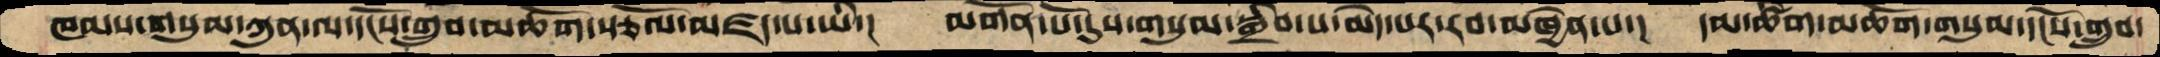ཁམས་གསུམ་ཀུན་ལ་དངོས་གྲུབ་མཆོག་སྩོལ་མཛད་པ་ཡི་།  མགོན་པོ་དུས་གསུམ་སྒྲིབ་པ་མེད་པར་རབ་མཁྱེན་པ་།  དམ་ཚིག་མཆོག་གསུམ་དངོས་གྲུབ་
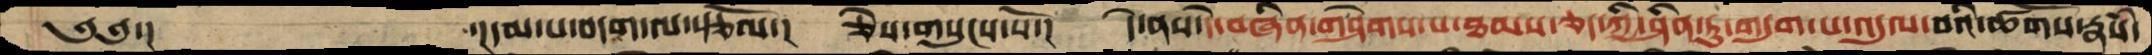༄༅་།    ་།དམ་པ་བདག་ལ་སྩོལ་།  ཅེས་གསུངས་སོ་།  དེ་ནས་དེ་བཞིན་གཤེགས་པ་ཐམས་ཅད་ཀྱི་ཤིན་ཏུ་གདུག་པ་འདུལ་བའི་ཚོགས་རྣཾས་
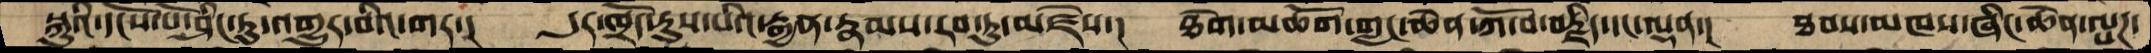སྐུའི་དངོས་པོ་ཤིང་ཏུ་འགྱུར་བའི་གར་།  དུར་ཁྲོད་རུས་པའི་རྒྱན་རྣམས་རབ་ཏུ་མཛེས་།  ཐེག་མཆོག་གླང་ཆེན་ཀོ་བ་བརྗིད་དང་ལྡན་།  ཐབས་མཁས་ཞིང་ཆེན་ལྤཌ་
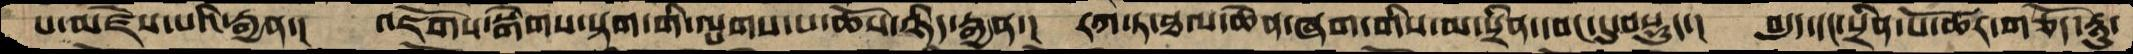པ་མཛེས་པའི་རྒྱན་།  འཇོགས་སྒེགས་སྟག་གི་ལྤགས་པ་ཆོས་ཉིད་རྒྱན་།  རཀ་ཏ་ཐལ་ཆེན་ཞག་གིས་མ་སྲིན་དབང་དུ་བསྡུ་།  བདུད་དང་སྲིན་པོ་ཚར་གཅོད་ཉུ་
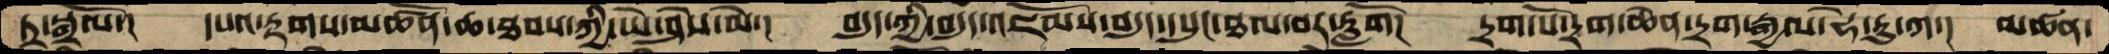ཏྲ་སྒྲོལ་།  དཔའ་རྟགས་མཚོན་ཆ་ཐབས་ཀྱི་ཡེ་ཤེས་མེ་།  བདུད་ཀྱི་བདུད་འཇོམས་བདུད་དཔུང་ཐལ་བར་རློག།  དྲག་པོ་དྲག་ཆེན་དྲག་རྒྱལ་ཧེ་རུ་ཀ་།  མཚན་
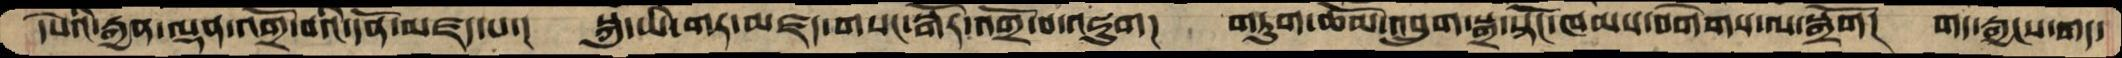དཔེའི་རྒྱན་ལྡན་འགྲོ་བའི་དོན་མཛད་པ་།  སྐུ་ཡི་གར་མཛད་གསང་སྒོར་འགྲོ་བ་འཇུག།  གཏུག་ཆོམ་འབྲུག་སྒྲ་སྟོང་ཁམས་བགེགས་ལ་སྒྲོག།  གད་རྒྱངས་གད་
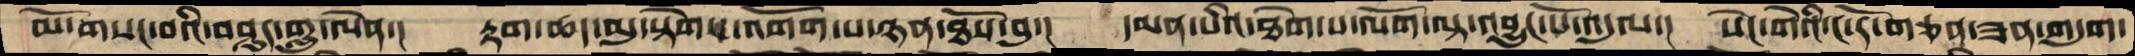མོ་གསང་བའི་བཤད་གླུ་ལེན་།  རྟག་ཆད་མུ་སྟེགས་འགོག་པ་ཉན་ཐོས་བུ་།  དམན་པའི་ཐེག་པ་ལོག་ལྟ་འབྱུང་པོ་འདུལ་།  སེང་གེའི་ང་རོ་གཅན་ཟན་གདུག་
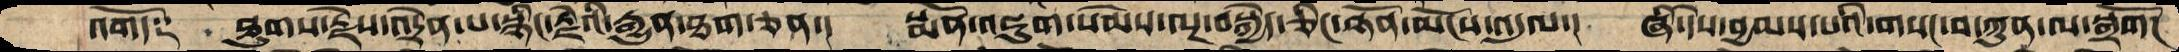འགོད༑  ཐུགས་རྗེས་འདྲེན་པ་སྙིང་རྗེའི་རྒྱུན་ཐག་ཅན་།  སྨོན་འཇུག་སེམས་ལྔ་བསྐྱེད་ཅིང་ཉོན་མོངས་འདུལ་།  ཞི་དེས་བྱམས་པའི་གསང་བ་ཀུན་ལ་སྒྲོག།
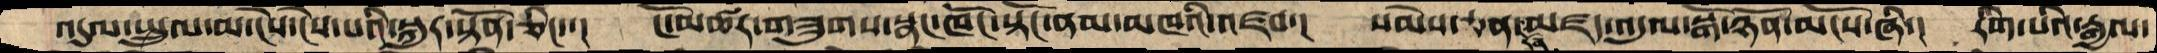འདུལ་སྤྲུལ་མ་ངེས་ངེས་པའི་སྐུར་སྟོན་ཅིང་་། ངོ་མཚར་གཟུགས་སྣང་ཁོང་སྟོང་ནམ་མཁའི་འཛབ་། སེམས་ཅན་དོན་མཛད་འདུལ་སྒོ་ཉོན་མོངས་ཞི་། རིག་པའི་རྒྱལ་
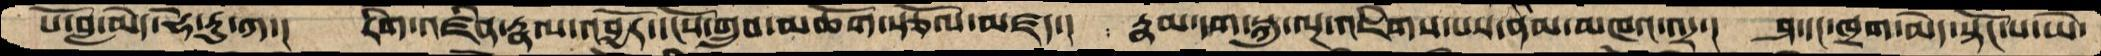པོ་བླ་མེད་ཧེ་རུ་ཀ་།  རིག་འཛིན་རྣལ་འབྱོར་དངོས་གྲུབ་མཆོག་སྩོལ་མཛད་།  རྣམ་དག་སྐུ་ལྔ་འཇིགས་པས་ནམ་མཁའ་འདྲ་།  ཤ་དང་ཁྲག་མེད་སྟོང་པ་ཡེ་
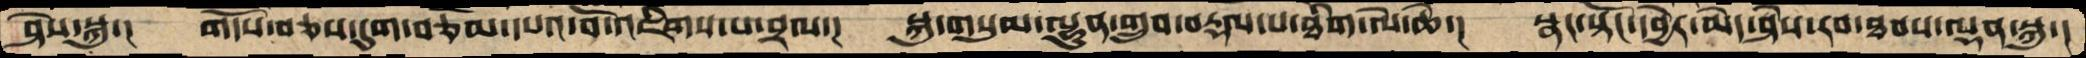ཤེས་སྐུ་།  གདོས་བཅས་དུག་བཅོམ་དཔའ་བོ་འཇིགས་པ་བྲལ་།  སྐུ་གསུམ་ལྷུན་གྲུབ་བརྡལ་པ་ཐིག་ལེ་ཆེ་།  སྣང་སྟོང་དབྱེར་མེད་ཤེས་རབ་ཐབས་ལྡན་སྐུ་།
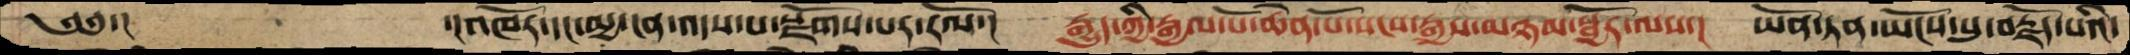༄༅་།    ་།འཁོར་དང་མྱ་ངན་འདས་པ་སྫོགས་པར་རོལ་།  རྒྱུད་ཀྱི་རྒྱལ་པོ་ཆེན་པོ་སངས་རྒྱས་མཉམ་སྦྱོར་ལས་།  ཡོན་ཏན་ཡོངས་སུ་བརྗོད་པའི་
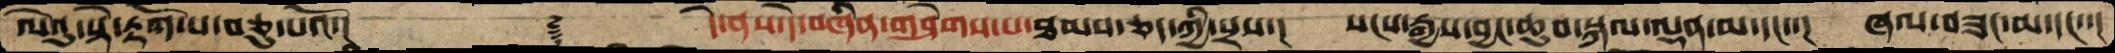ལེའུ་སྟེ་རྟོག་པབཅུ་པའོ་།    ༈   དེ་ནས་དེ་བཞིན་གཤེགས་པ་ཐམས་ཅད་ཀྱི་སྲས་། སངས་རྒྱས་བྱང་ཆུབ་སྐལ་ལྡན་མ་དང་་། ཞལ་བཟང་མ་དང་་།
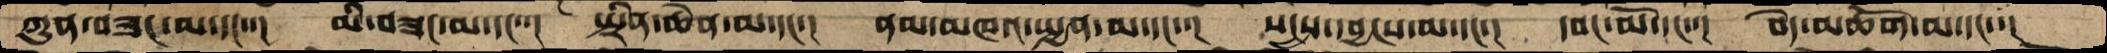ཀུན་བཟང་མ་དང་་།  མི་བཟང་མ་དང་་།  སྤྲིན་ཆེན་མ་དང་་།  ནམ་མཁའ་སྤྱན་མ་དང་་།  སདྱས་དབྱངས་མ་དང་་།  དབང་མོ་དང་་།  བདེ་མཆོག་མ་དང་་།
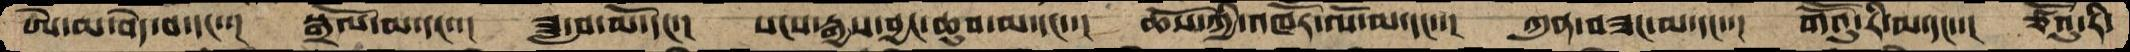ཨེ་མ་བདེ་བ་དང་་།  སྒྲོལ་མ་དང་་།  ཟླ་བ་མོ་དང་་།  སངས་རྒྱས་བྱང་ཆུབ་མ་དང་་།  ཆོས་ཀྱི་འཁོར་ལོ་མ་དང་་།  ཀུན་ཏུ་བཟང་མ་དང་་།  གཽའུ་རི་མ་དང་་།  ཙོའུ་རི་
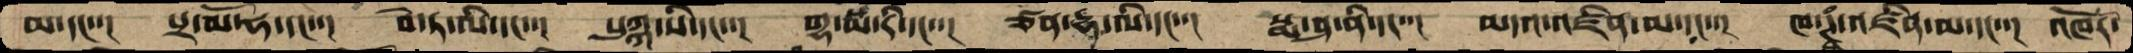མ་དང་་།  པྲ་མོ་ཧ་དང་་།  བེ་ཏ་ལི་དང་་།  པུཀྐ་སི་དང་་།  གྷ་སྨ་རི་དང་་།  ཙན་དྷ་ལི་དང་་།  སྨ་ཤ་ནི་དང་་།   མདའ་འཛིན་མ་དང་་།  ཁ་ཊྭཾ་འཛིན་མ་དང་་།  འཁོར་
